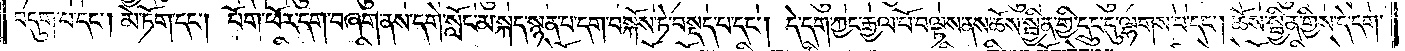བདུག་པ་དང༌། མེ་ཏོག་དང༌། པོག་ཕོར་དག་བཞག་ནས་དགེ་སློང་མ་སྐད་སྙན་པ་དག་བསྐོས་ཏེ་བསྡད་པ་དང༌། དེ་དག་ཀྱང་རྒྱལ་པོ་བལྟས་ནས་ཆོས་སྦྱིན་གྱི་དྲུང་དུ་ལྷགས་པ་དང༌། ཆོས་སྦྱིན་གྱིས་དེ་དག་
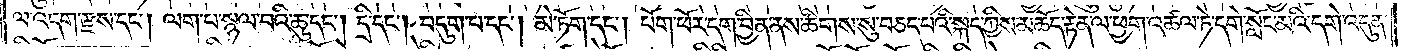ལ་འདག་རྫས་དང༌། ལག་པ་སྙལ་བའི་ཆུ་དང༌། དྲི་དང༌། བདུག་པ་དང༌། མེ་ཏོག་དང༌། པོག་ཕོར་དག་བྱིན་ནས་ཚིགས་སུ་བཅད་པའི་སྐད་ཀྱིས་མཆོད་རྟེན་ལ་ཕྱག་འཚལ་ཏེ་དགེ་སློང་མའི་དགེ་འདུན་
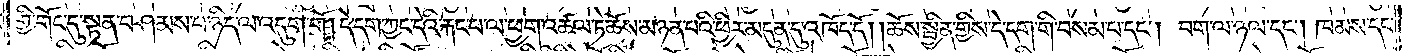གྱི་གོང་དུ་སྟན་བཤམས་པ་ཉིད་ལ་འདུག་གོ །དེ་དག་ཀྱང་དེའི་རྐང་པ་ལ་ཕྱག་འཚལ་ཏེ་ཆོས་མཉན་པའི་ཕྱིར་མདུན་དུ་འཁོད་དོ། །ཆོས་སྦྱིན་གྱིས་དེ་དག་གི་བསམ་པ་དང༌། བག་ལ་ཉལ་དང༌། ཁམས་དང་
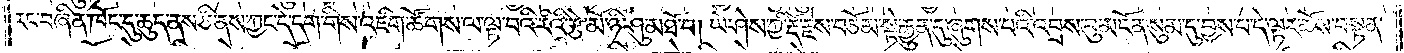རང་བཞིན་ཁོང་དུ་ཆུད་ནས་ཅི་ནས་ཀྱང་དེ་དག་གིས་འཇིག་ཚོགས་ལ་ལྟ་བའི་རིའི་རྩེ་མོ་ཉི་ཤུ་མཐོ་བ། ཡེ་ཤེས་ཀྱི་རྡོ་རྗེས་བཅོམ་སྟེ་རྒྱུན་དུ་ཞུགས་པའི་འབྲས་བུ་མངོན་སུམ་དུ་བྱས་པ་དེ་ལྟར་ཆོས་བསྟན་
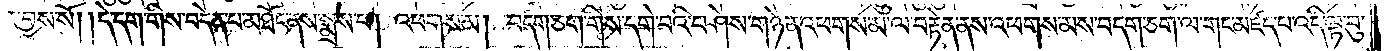པར་བྱས་སོ། །དེ་དག་གིས་བདེན་པ་མཐོང་ནས་སྨྲས་པ། འཕགས་མ། བདག་ཅག་གིས་དགེ་བའི་བཤེས་གཉེན་འཕགས་མ་ལ་བརྟེན་ནས་འཕགས་མས་བདག་ཅག་ལ་གང་མཛད་པ་འདི་ལྟ་བུ་
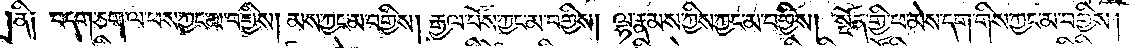ནི༑ བདག་ཅག་ལ་ཕས་ཀྱང་མ་བགྱིས། མས་ཀྱང་མ་བགྱིས། རྒྱལ་པོས་ཀྱང་མ་བགྱིས། ལྷ་རྣམས་ཀྱིས་ཀྱང་མ་བགྱིས། སྔོན་གྱི་ཕ་མེས་དག་གིས་ཀྱང་མ་བགྱིས།
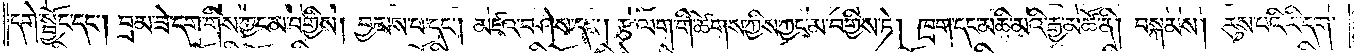དགེ་སྦྱོང་དང༌། བྲམ་ཟེ་དག་གིས་ཀྱང་མ་བགྱིས། བྱམས་པ་དང༌། མཛའ་བཤེས་དང༌། རྩ་ལག་གི་ཚེགས་ཀྱིས་ཀྱང་མ་བགྱིས་ཏེ། ཁྲག་དང་མཆི་མའི་རྒྱ་མཚོ་ནི། བསྐམས། རུས་པའི་རི་དག་
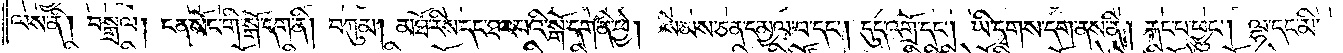ལས་ནི། བསྒྲལ། ངན་སོང་གི་སྒོ་དག་ནི། བཀུམ། མཐོ་རིས་དང་ཐར་པའི་སྒོ་དག་ནི་ཕྱེ། སེམས་ཅན་དམྱལ་བ་དང༌། དུད་འགྲོ་དང༌། ཡི་དྭགས་དག་ནས་ནི། རྐང་པ་ཕྱུང༌། ལྷ་དང་མི་
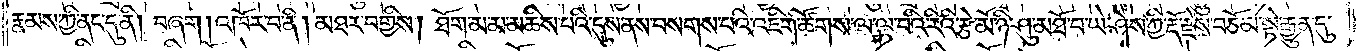རྣམས་ཀྱི་ནང་དུ་ནི། བཞག །འཁོར་བ་ནི། མཐར་བགྱིས། ཐོག་མ་མ་མཆིས་པའི་དུས་ནས་བསགས་པའི་འཇིག་ཚོགས་ལ་ལྟ་བའི་རིའི་རྩེ་མོ་ཉི་ཤུ་མཐོ་བ་ཡེ་ཤེས་ཀྱི་རྡོ་རྗེས་བཅོམ་སྟེ་རྒྱུན་དུ་
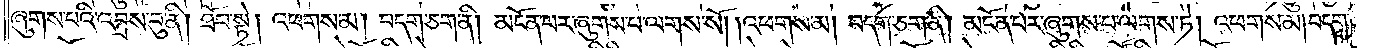ཞུགས་པའི་འབྲས་བུ་ནི། ཐོབ་སྟེ། འཕགས་མ། བདག་ཅག་ནི། མངོན་པར་ཞུགས་པ་ལགས་སོ། །འཕགས་མ། བདག་ཅག་ནི། མངོན་པར་ཞུགས་པ་ལགས་ཏེ། འཕགས་མ།བདག་
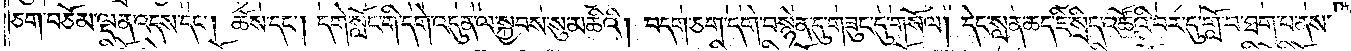ཅག་བཅོམ་ལྡན་འདས་དང༌། ཆོས་དང༌། དགེ་སློང་གི་དགེ་འདུན་ལ་སྐྱབས་སུ་མཆིའི། བདག་ཅག་དགེ་བསྙེན་དུ་གཟུང་དུ་གསོལ། དེང་སླན་ཆད་ཇི་སྲིད་འཚོའི་བར་དུ་གློ་བ་ཐག་པ་ནས་
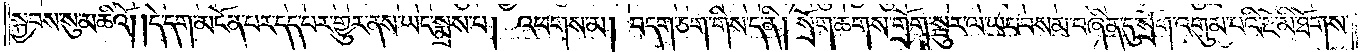སྐྱབས་སུ་མཆིའོ། །དེ་དག་མངོན་པར་དད་པར་གྱུར་ནས་ཡང་སྨྲས་པ། འཕགས་མ། བདག་ཅག་གིས་ད་ནི། སྲོག་ཆགས་གྲོག་སྦུར་ལ་ཡང་བསམ་བཞིན་དུ་སྲོག་འགུམ་པའི་རྔོ་མི་ཐོགས་
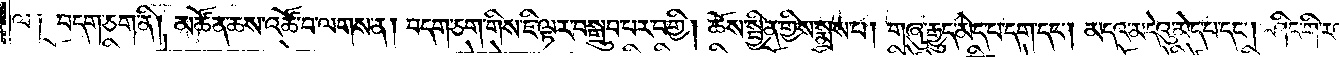ལ༑ བདག་ཅག་ནི། མཚོན་ཆས་འཚོ་བ་ལགས་ན། བདག་ཅག་གིས་ཇི་ལྟར་བསྒྲུབ་པར་བགྱི། ཆོས་སྦྱིན་གྱིས་སྨྲས་པ། གཞུ་རྒྱུད་མེད་པ་དག་དང༌། མདའ་མདེའུ་མེད་པ་དང༌། ཤིང་གི་རལ་གྲི་
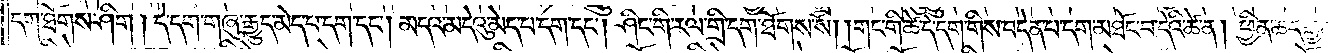དག་ཐོགས་ཤིག །དེ་དག་གཞུ་རྒྱུད་མེད་པ་དག་དང༌། མདའ་མདེའུ་མེད་པ་དག་དང༌། ཤིང་གི་རལ་གྲི་དག་ཐོགས་སོ། །གང་གི་ཚེ་དེ་དག་གིས་བདེན་པ་དག་མཐོང་བ་དེའི་ཚེ་ན། ཕྱིན་ཆད་རྒྱལ་པོ་རྩེ་
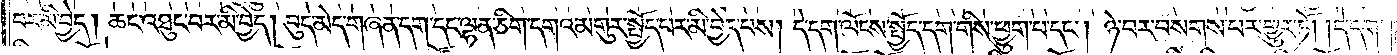བར་མི་བྱེད། ཆང་འཐུང་བར་མི་བྱེད། བུད་མེད་གཞན་དག་དང་ལྷན་ཅིག་དགའ་མགུར་སྤྱོད་པར་མི་བྱེད་པས། དེ་དག་ལོངས་སྤྱོད་དག་གིས་ཕྱུག་པ་དང༌། ཉེ་བར་བསགས་པར་གྱུར་ཏོ། །དེ་དག་
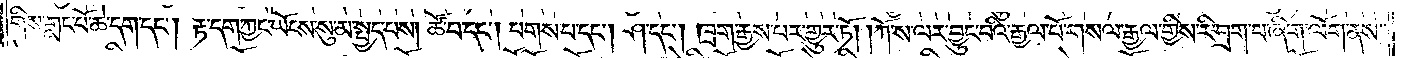གིས་གླང་པོ་ཆེ་དག་དང༌། རྟ་དག་ཀྱང་ཡོངས་སུ་མ་སྤྱད་པས། ཚོ་བ་དང༌། པགས་པ་དང༌། ཤ་དང༌། ཁྲག་རྒྱས་པར་གྱུར་ཏོ། །ཀོ་ས་ལར་བྱུང་བའི་རྒྱལ་པོ་གསལ་རྒྱལ་གྱིས་རི་བྲག་པ་ཞིག་ལོག་ནས་
